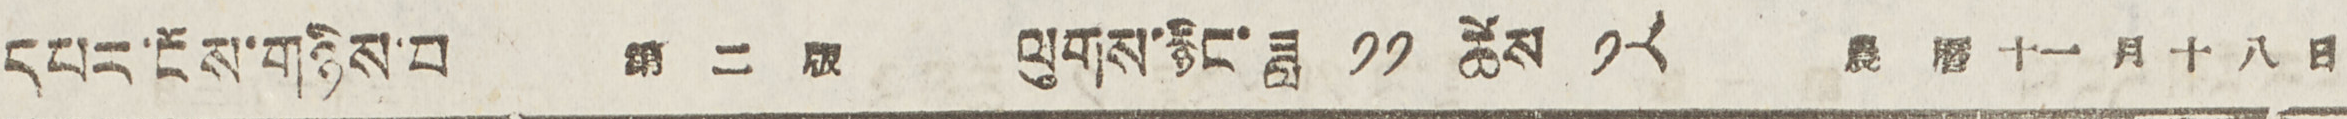དཔར་ངོས་གཉིས་པ 第 二 版 ལུགས་རྙིང་ཟླ ༡༡ ཚེས ༡༨ 農 曆 十一 月 十 八 日
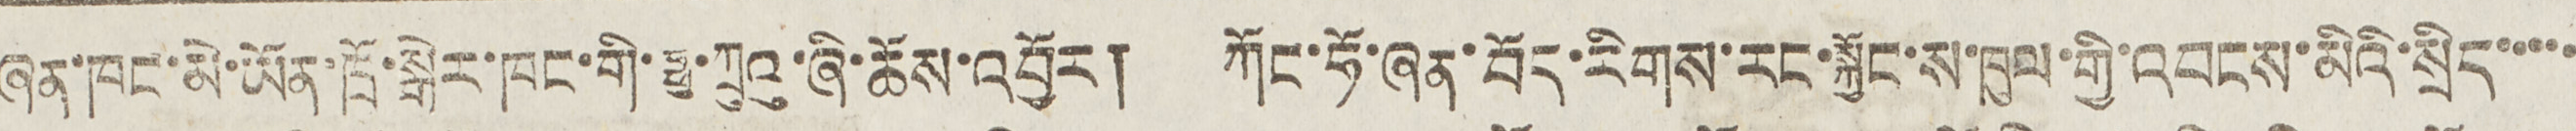ཞན་ཁང་མེ་ཡོན་ཁྲོ་སྒེར་ཁང་གི་ཧྥུ་ཀྲུའུ་ཞི་ཆོས་འབྱོར། ཀོང་ཧོ་ཞན་བོད་རིགས་རང་སྐྱོང་ས་ཁུལ་གྱི་འབངས་མིའི་སྲིད་་་་་
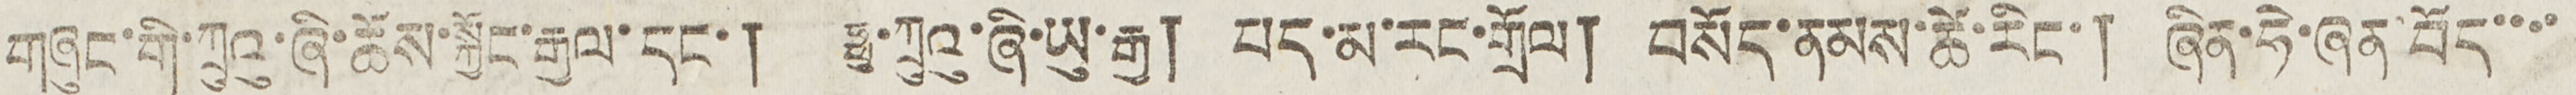གཞུང་གི་ཀྲུའུ་ཞི་ཆོས་སྐྱོང་རྒྱལ་དང་། ཧྥུ་ཀྲུའུ་ཞི་ཡུ་རྒྱ། པད་མ་རང་གྲོལ། བསོད་ནམས་ཚེ་རིང་། ཞིན་ཧེ་ཞན་བོད་་་་
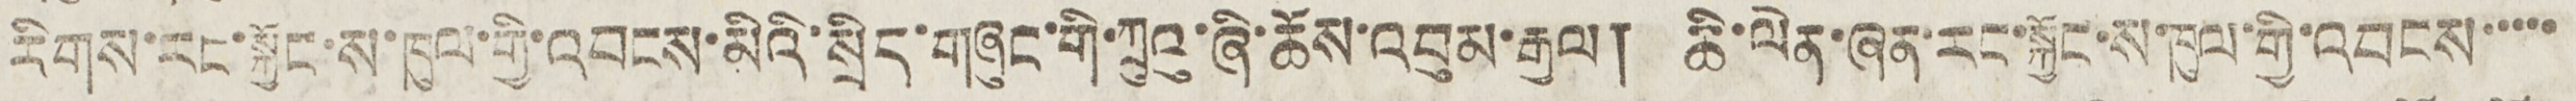རིགས་རང་སྐྱོང་ས་ཁུལ་གྱི་འབངས་མིའི་སྲིད་གཞུང་གི་ཀྲུའུ་ཞི་ཆོས་འབུམ་རྒྱལ། ཆི་ལེན་ཞན་རང་སྐྱོང་ས་ཁུལ་གྱི་འབངས་་་་་
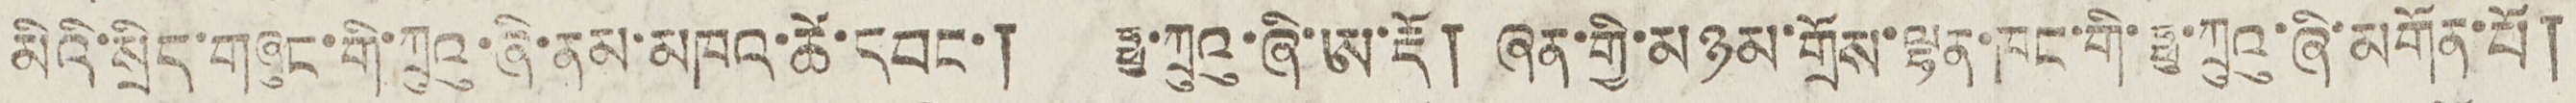མིའི་སྲིད་གཞུང་གི་ཀྲུའུ་ཞི་ནམ་མཁའ་ཚེ་དབང་། ཧྥུ་ཀྲུའུ་ཞི་ཨ་རྡོ། ཞན་གྱི་མཉམ་གྲོས་ལྷན་ཁང་གི་ཧྥུ་ཀྲུའུ་ཞི་མགོན་པོ།
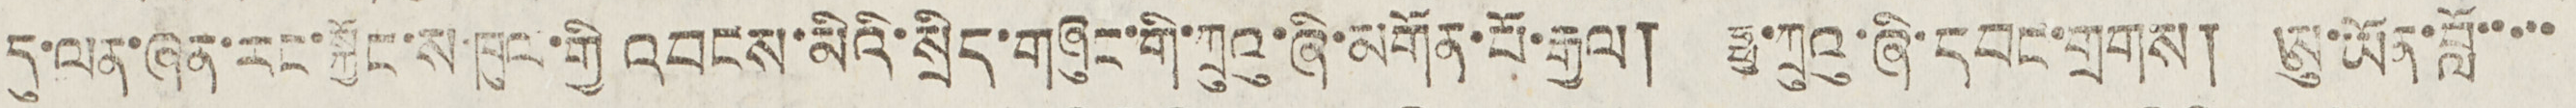དུ་ལན་ཞན་རང་སྐྱོང་ས་ཁུང་གྱི འབངས་མིའི་སྲིད་གཞུང་གི་ཀྲུའུ་ཞི་མགོན་པོ་རྒྱལ། ཧྥུ་ཀྲུའུ་ཞི་དབང་གྲགས། ཨུ་ཡོན་བློ་་་་་
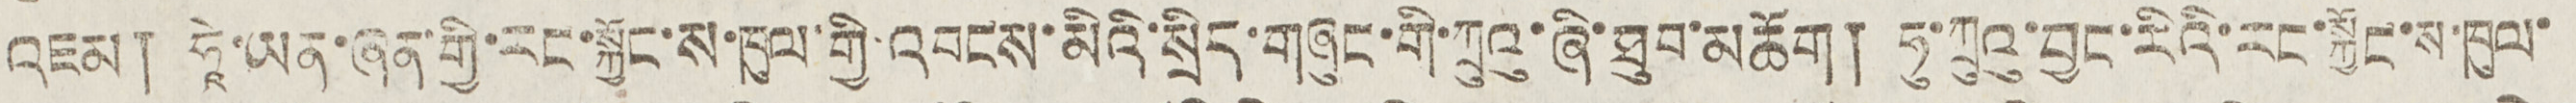འཇམ། ཧཱེ་ཡན་ཞན་གྱི་རང་སྐྱོང་ས་ཁུལ་གྱི་འབངས་མིའི་སྲིད་གཞུང་གི་ཀྲུའུ་ཞི་ཐུབ་མཆོག། ཧུ་ཀྲུའུ་བྱང་རིའི་རང་སྐྱོང་ས་ཁུལ་
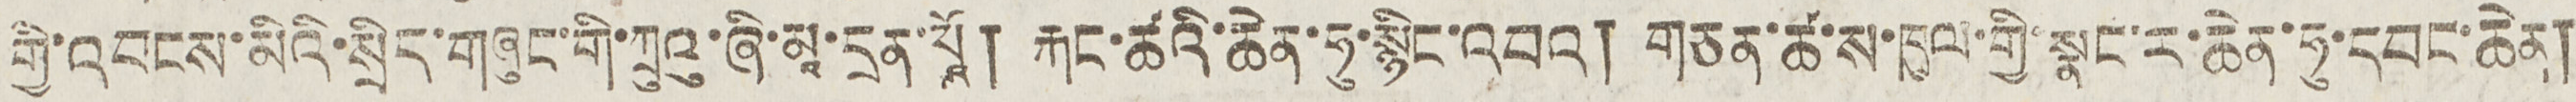གྱི་བངས་མིའི་སྲིད་གཞུང་གི་ཀྲུའུ་ཞི་མཱ་དྲན་པཱོ། རྐང་ཚའི་ཆེན་ཧུ་སྙིང་འབའ། གཅན་ཚ་ས་ཁུལ་གྱི་སྣང་ར་ཆེན་ཧུ་དབང་ཆེན།
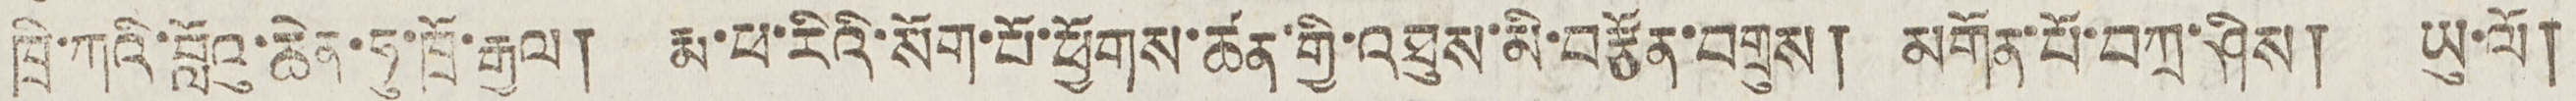ཁྲི་ཀའི་བློའུ་ཆེན་ཧུ་ཁྲོ་རྒྱལ། རྨ་ཕ་རིའི་སོག་པོ་ཕྱོགས་ཚན་གྱི་འཐུས་མི་བརྩོན་བགྲུས། མགོན་པོ་བཀྲ་ཤིས། ཡུ་ལོ།
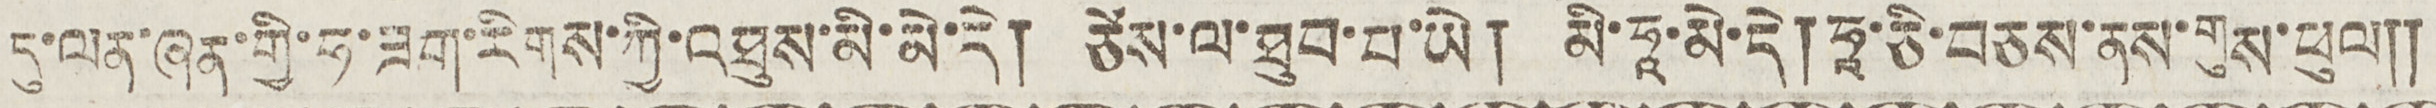དུ་ལན་ཞན་གྱི་ཧ་ཟག་རིགས་ཀྱི་འཐུས་མི་མེ་དེ། ཙེས་ལ་ཐུབ་པ་ཡེ། མི་ཧཱ་མེ་དེ། ཧཱ་ཅི་བཅས་ནས་གུས་ཕུལ༎
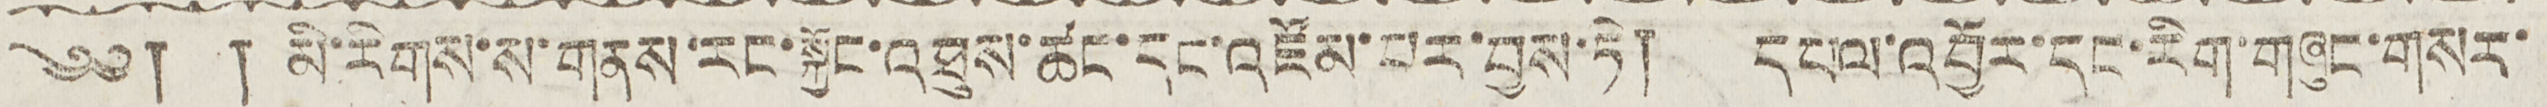༄༅། ། མི་རིགས་ས་གནས་རང་སྐྱོང་འཐུས་ཚང་དང་འཛོམ་པར་བྱས་ཏེ། དཔལ་འབྱོར་དང་རིག་གཞུང་གསར་
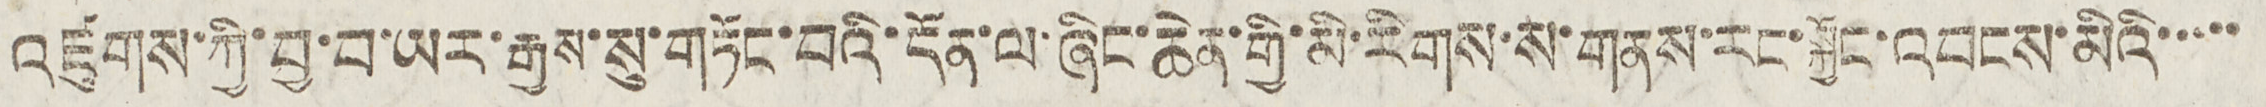འཛུགས་ཀྱི་བྱ་བ་ཡར་རྒྱས་སུ་གཏོང་བའི་དོན་ལ་ཞིང་ཆེན་གྱི་མི་རིགས་ས་གནས་རང་སྐྱོང་འབངས་མིའི་་་་་
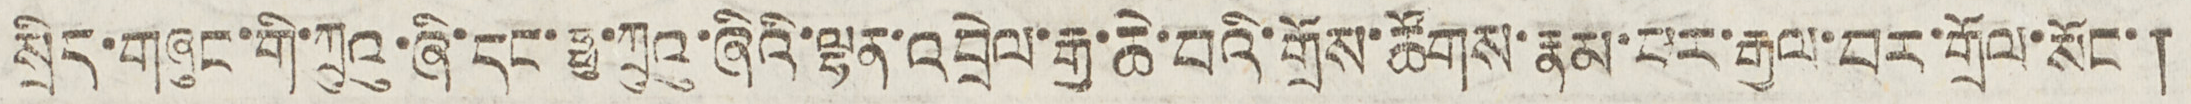སྲིད་གཞུང་གི་ཀྲུའུ་ཞི་དང་ཧྥུ་ཀྲུའུ་ཞིའི་ལྷན་འབྲེལ་རྒྱ་ཆེ་བའི་གྲོས་ཚོགས་རྣམ་པར་རྒྱལ་བར་གྲོལ་མོང་།
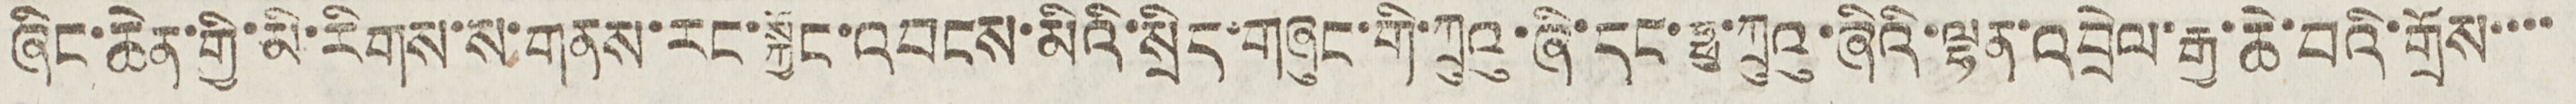ཞིང་ཆེན་གྱི་མི་རིགས་ས་གནས་རང་སྐྱོང་འབངས་མིའི་སྲིད་གཞུང་གི་ཀྲུའུ་ཞི་དང་ཧྥུ་ཀྲུའུ་ཞིའི་ལྷན་འབྲེལ་རྒྱ་ཆེ་བའི་གྲོས་་་་
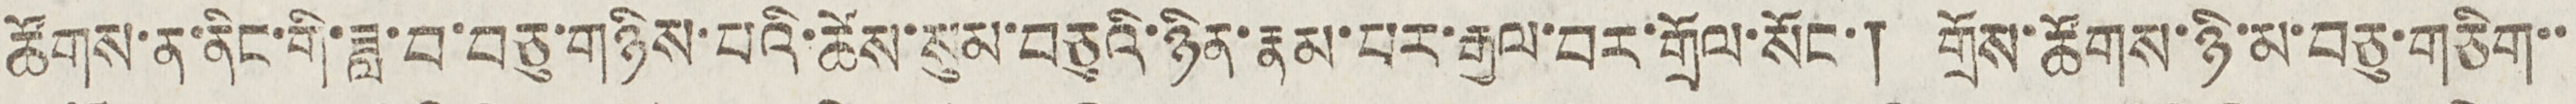ཚོགས་ན་ནིང་གི་ཟླ་བ་བཅུ་གཉིས་པའི་ཚེས་སུམ་བཅུའི་ཉིན་རྣམ་པར་རྒྱལ་བར་གྲོལ་སོང་། གྲོས་ཚོགས་ཉི་མ་བཅུ་གཅིག་་
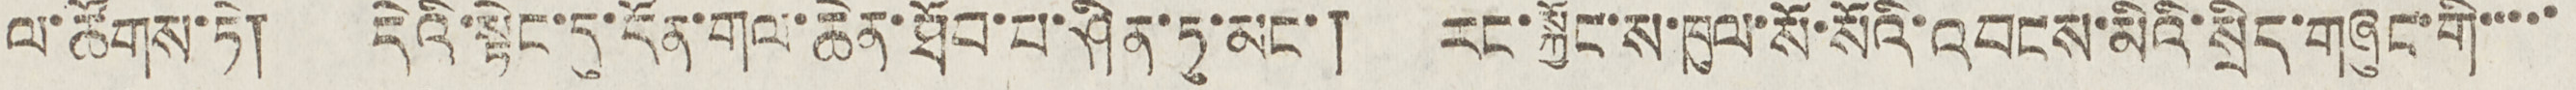ལ་ཚོགས་ཏེ། དེའི་སྟེང་དུ་དོན་གལ་ཆེན་ཐོབ་པ་ཤིན་ཏུ་མང་། རང་སྐྱོང་ས་ཁུལ་སོ་སོའི་འབངས་མིའི་སྲིད་གཞུང་གི་་་་་
